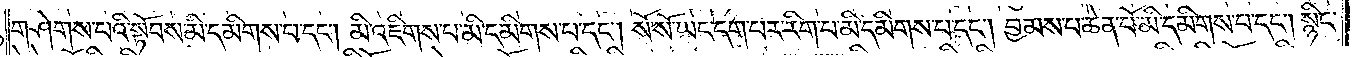གཤེགས་པའི་སྟོབས་མི་དམིགས་པ་དང༌། མི་འཇིགས་པ་མི་དམིགས་པ་དང༌། སོ་སོ་ཡང་དག་པར་རིག་པ་མི་དམིགས་པ་དང༌། བྱམས་པ་ཆེན་པོ་མི་དམིགས་པ་དང༌། སྙིང་
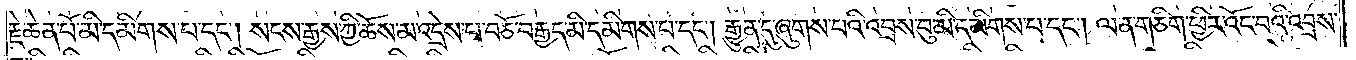རྗེ་ཆེན་པོ་མི་དམིགས་པ་དང༌། སངས་རྒྱ་སྐྱི་ཆོས་མ་འདྲེས་པ་བཅོ་བརྒྱད་མི་དམིགས་པ་དང༌། རྒྱུན་དུ་ཞུགས་པའི་འབྲས་བུ་མི་དམིགས་པ་དང༌། ལན་གཅིག་ཕྱིར་འོང་བའི་འབྲས་
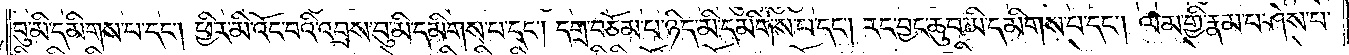བུ་མི་དམིགས་པ་དང༌། ཕྱིར་མི་འོང་བའི་འབྲས་བུ་མི་དམིགས་པ་དང༌། དགྲ་བཅོམ་པ་ཉིད་མི་དམིགས་པ་དང༌། རང་བྱང་ཆུབ་མི་དམིགས་པ་དང༌། ལམ་གྱི་རྣམ་པ་ཤེས་པ་
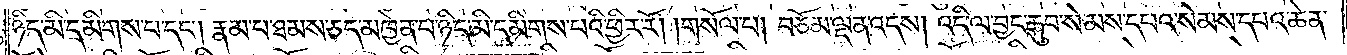ཉིད་མི་དམིགས་པ་དང༌། རྣམ་པ་ཐམས་ཅད་མཁྱེན་པ་ཉིད་མི་དམིགས་པའི་ཕྱིར་རོ། །གསོལ་པ། བཅོམ་ལྡན་འདས། འདི་ལ་བྱང་ཆུབ་སེམས་དཔའ་སེམས་དཔའ་ཆེན་
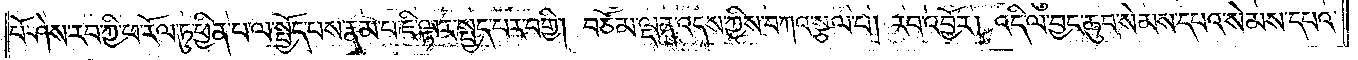པོ་ཤེས་རབ་ཀྱི་ཕ་རོལ་ཏུ་ཕྱིན་པ་ལ་སྤྱོད་པས་རྣམ་པ་ཇི་ལྟར་སྤྱད་པར་བགྱི། བཅོམ་ལྡན་འདས་ཀྱིས་བཀའ་སྩལ་པ། རབ་འབྱོར། འདི་ལ་བྱང་ཆུབ་སེམས་དཔའ་སེམས་དཔའ་
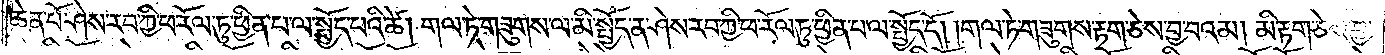ཆེན་པོ་ཤེས་རབ་ཀྱི་ཕ་རོལ་ཏུ་ཕྱིན་པ་ལ་སྤྱོད་པའི་ཚེ། གལ་ཏེ་གཟུགས་ལ་མི་སྤྱོད་ན་ཤེས་རབ་ཀྱི་ཕ་རོལ་ཏུ་ཕྱིན་པ་ལ་སྤྱོད་དོ། །གལ་ཏེ་གཟུགས་རྟག་ཅེས་བྱ་བའམ། མི་རྟག་ཅེས་བྱ་
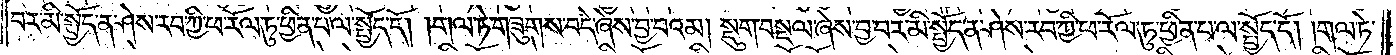བར་མི་སྤྱོད་ན་ཤེས་རབ་ཀྱི་ཕ་རོལ་ཏུ་ཕྱིན་པ་ལ་སྤྱོད་དོ། །གལ་ཏེ་གཟུགས་བདེ་ཞེས་བྱ་བའམ། སྡུག་བསྔལ་ཞེས་བྱ་བར་མི་སྤྱོད་ན་ཤེས་རབ་ཀྱི་ཕ་རོལ་ཏུ་ཕྱིན་པ་ལ་སྤྱོད་དོ། །གལ་ཏེ་
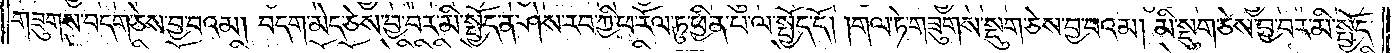གཟུགས་བདག་ཅེས་བྱ་བའམ། བདག་མེད་ཅེས་བྱ་བར་མི་སྤྱོད་ན་ཤེས་རབ་ཀྱི་ཕ་རོལ་ཏུ་ཕྱིན་པ་ལ་སྤྱོད་དོ། །གལ་ཏེ་གཟུགས་སྡུག་ཅེས་བྱ་བའམ། མི་སྡུག་ཅེས་བྱ་བར་མི་སྤྱོད་
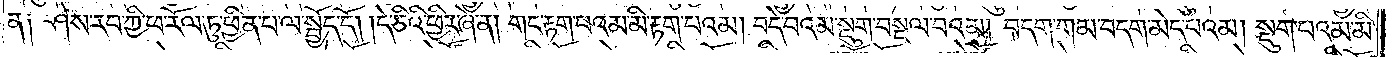ན༑ ཤེས་རབ་ཀྱི་ཕ་རོལ་ཏུ་ཕྱིན་པ་ལ་སྤྱོད་དོ། །དེ་ཅིའི་ཕྱིར་ཞེ་ན། གང་རྟག་པའམ་མི་རྟག་པའམ། བདེ་བའམ་སྡུག་བསྔལ་བའམ། བདག་གམ་བདག་མེད་པའམ། སྡུག་པའམ་མི་
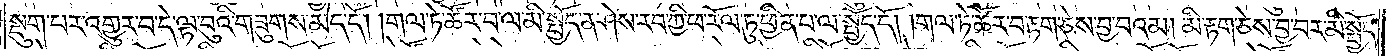སྡུག་པར་འགྱུར་བ་དེ་ལྟ་བུའི་གཟུགས་མེད་དོ། །གལ་ཏེ་ཚོར་བ་ལ་མི་སྤྱོད་ན་ཤེས་རབ་ཀྱི་ཕ་རོལ་ཏུ་ཕྱིན་པ་ལ་སྤྱོད་དོ། །གལ་ཏེ་ཚོར་བ་རྟག་ཅེས་བྱ་བའམ། མི་རྟག་ཅེས་བྱ་བར་མི་སྤྱོད་
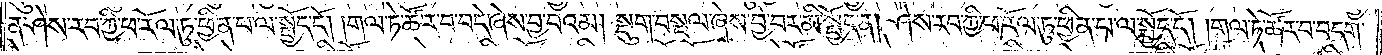ན་ཤེས་རབ་ཀྱི་ཕ་རོལ་ཏུ་ཕྱིན་པ་ལ་སྤྱོད་དོ། །གལ་ཏེ་ཚོར་བ་བདེ་ཞེས་བྱ་བའམ། སྡུག་བསྔལ་ཞེས་བྱ་བར་མི་སྤྱོད་ན། ཤེས་རབ་ཀྱི་ཕ་རོལ་ཏུ་ཕྱིན་པ་ལ་སྤྱོད་དོ། །གལ་ཏེ་ཚོར་བ་བདག་
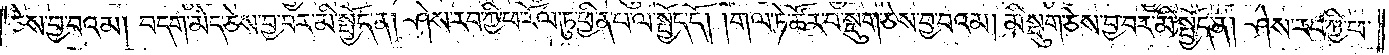ཅེས་བྱ་བའམ། བདག་མེད་ཅེས་བྱ་བར་མི་སྤྱོད་ན། ཤེས་རབ་ཀྱི་ཕ་རོལ་ཏུ་ཕྱིན་པ་ལ་སྤྱོད་དོ། །གལ་ཏེ་ཚོར་བ་སྡུག་ཅེས་བྱ་བའམ། མི་སྡུག་ཅེས་བྱ་བར་མི་སྤྱོད་ན། ཤེས་རབ་ཀྱི་ཕ་
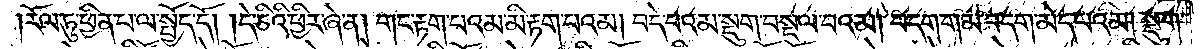རོལ་ཏུ་ཕྱིན་པ་ལ་སྤྱོད་དོ། །དེ་ཅིའི་ཕྱིར་ཞེ་ན། གང་རྟག་པའམ་མི་རྟག་པའམ། བདེ་བའམ་སྡུག་བསྔལ་བའམ། བདག་གམ་བདག་མེད་པའམ། སྡུག་
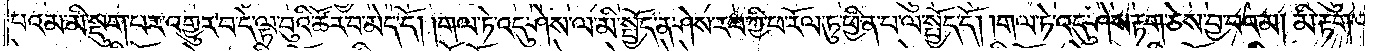པའམ་མི་སྡུག་པར་འགྱུར་བ་དེ་ལྟ་བུའི་ཚོར་བ་མེད་དོ། །གལ་ཏེ་འདུ་ཤེས་ལ་མི་སྤྱོད་ན་ཤེས་རབ་ཀྱི་ཕ་རོལ་ཏུ་ཕྱིན་པ་ལ་སྤྱོད་དོ། །གལ་ཏེ་འདུ་ཤེས་རྟག་ཅེས་བྱ་བའམ། མི་རྟག་
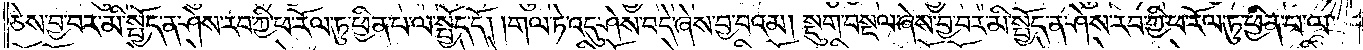ཅེས་བྱ་བར་མི་སྤྱོད་ན་ཤེས་རབ་ཀྱི་ཕ་རོལ་ཏུ་ཕྱིན་པ་ལ་སྤྱོད་དོ། །གལ་ཏེ་འདུ་ཤེས་བདེ་ཞེས་བྱ་བའམ། སྡུག་བསྔལ་ཞེས་བྱ་བར་མི་སྤྱོད་ན་ཤེས་རབ་ཀྱི་ཕ་རོལ་ཏུ་ཕྱིན་པ་ལ་
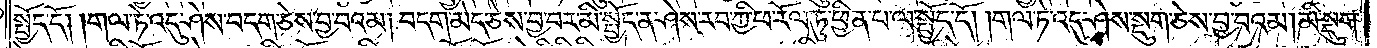སྤྱོད་དོ། །གལ་ཏེ་འདུ་ཤེས་བདག་ཅེས་བྱ་བའམ། བདག་མེད་ཅེས་བྱ་བར་མི་སྤྱོད་ན་ཤེས་རབ་ཀྱི་ཕ་རོལ་ཏུ་ཕྱིན་པ་ལ་སྤྱོད་དོ། །གལ་ཏེ་འདུ་ཤེས་སྡུག་ཅེས་བྱ་བའམ། མི་སྡུག་
